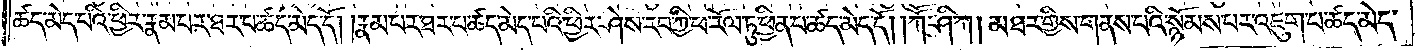ཚད་མེད་པའི་ཕྱིར་རྣམ་པར་ཐར་པ་ཚད་མེད་དོ། །རྣམ་པར་ཐར་པ་ཚད་མེད་པའི་ཕྱིར་ཤེས་རབ་ཀྱི་ཕ་རོལ་ཏུ་ཕྱིན་པ་ཚད་མེད་དོ། །ཀཽ་ཤི་ཀ། མཐར་གྱིས་གནས་པའི་སྙོམས་པར་འཇུག་པ་ཚད་མེད་
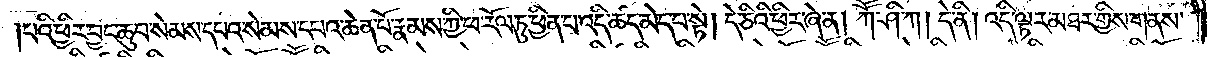པའི་ཕྱིར་བྱང་ཆུབ་སེམས་དཔའ་སེམས་དཔའ་ཆེན་པོ་རྣམས་ཀྱི་ཕ་རོལ་ཏུ་ཕྱིན་པ་འདི་ཚད་མེད་པ་སྟེ། དེ་ཅིའི་ཕྱིར་ཞེ་ན། ཀཽ་ཤི་ཀ། དེ་ནི། འདི་ལྟར་མཐར་གྱིས་གནས་
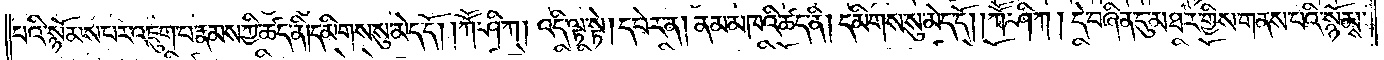པའི་སྙོམས་པར་འཇུག་པ་རྣམས་ཀྱི་ཚད་ནི། དམིགས་སུ་མེད་དོ། །ཀཽ་ཤི་ཀ། འདི་ལྟ་སྟེ། དཔེར་ན། ནམ་མཁའི་ཚད་ནི། དམིགས་སུ་མེད་དོ། །ཀཽ་ཤི་ཀ །དེ་བཞིན་དུ་མཐར་གྱིས་གནས་པའི་སྙོམས་
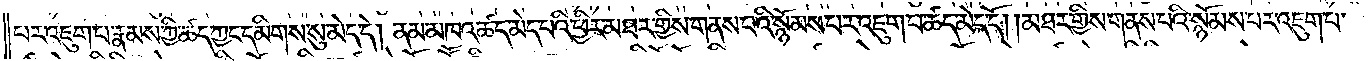པར་འཇུག་པ་རྣམས་ཀྱི་ཚད་ཀྱང་དམིགས་སུ་མེད་དེ། ནམ་མཁའ་ཚད་མེད་པའི་ཕྱིར་མཐར་གྱིས་གནས་པའི་སྙོམས་པར་འཇུག་པ་ཚད་མེད་དོ། །མཐར་གྱིས་གནས་པའི་སྙོམས་པར་འཇུག་པ་
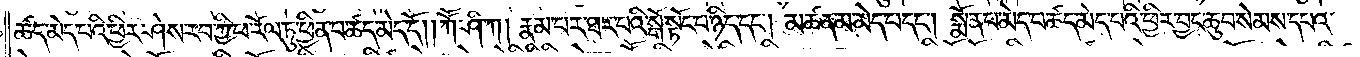ཚད་མེད་པའི་ཕྱིར་ཤེས་རབ་ཀྱི་ཕ་རོལ་ཏུ་ཕྱིན་པ་ཚད་མེད་དོ། །ཀཽ་ཤི་ཀ། རྣམ་པར་ཐར་པའི་སྒོ་སྟོང་པ་ཉིད་དང༌། མཚན་མ་མེད་པ་དང༌། སྨོན་པ་མེད་པའི་ཕྱིར་བྱང་ཆུབ་སེམས་དཔའ་
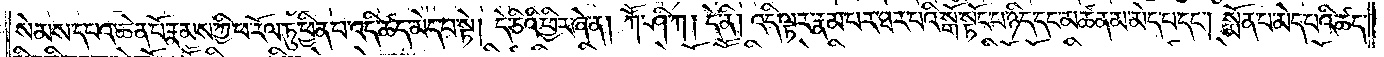སེམས་དཔའ་ཆེན་པོ་རྣམས་ཀྱི་ཕ་རོལ་ཏུ་ཕྱིན་པ་འདི་ཚད་མེད་པ་སྟེ། དེ་ཅིའི་ཕྱིར་ཞེ་ན། ཀཽ་ཤི་ཀ། དེ་ནི། འདི་ལྟར་རྣམ་པར་ཐར་པའི་སྒོ་སྟོང་པ་ཉིད་དང་མཚན་མ་མེད་པ་དང༌། སྨོན་པ་མེད་པའི་ཚད་
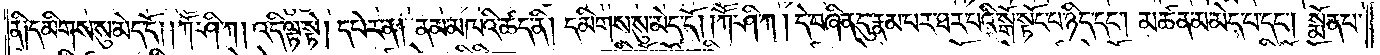ནི། དམིགས་སུ་མེད་དོ། །ཀཽ་ཤི་ཀ། འདི་ལྟ་སྟེ། དཔེར་ན། ནམ་མཁའི་ཚད་ནི། དམིགས་སུ་མེད་དོ། །ཀཽ་ཤི་ཀ། དེ་བཞིན་དུ་རྣམ་པར་ཐར་པའི་སྒོ་སྟོང་པ་ཉིད་དང༌། མཚན་མ་མེད་པ་དང༌། སྨོན་པ་
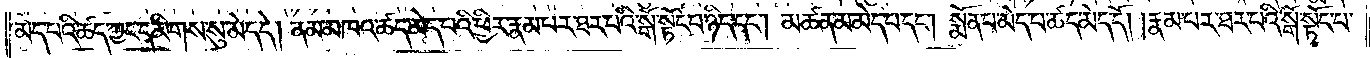མེད་པའི་ཚད་ཀྱང་དམིགས་སུ་མེད་དེ། ནམ་མཁའ་ཚད་མེད་པའི་ཕྱིར་རྣམ་པར་ཐར་པའི་སྒོ་སྟོང་པ་ཉིད་དང༌། མཚན་མ་མེད་པ་དང༌། སྨོན་པ་མེད་པ་ཚད་མེད་དོ། །རྣམ་པར་ཐར་པའི་སྒོ་སྟོང་པ་
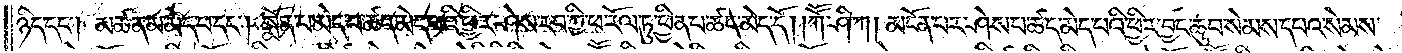ཉིད་དང༌། མཚན་མ་མེད་པ་དང༌། སྨོན་པ་མེད་པ་ཚད་མེད་པའི་ཕྱིར་ཤེས་རབ་ཀྱི་ཕ་རོལ་ཏུ་ཕྱིན་པ་ཚད་མེད་དོ། །ཀཽ་ཤི་ཀ། མངོན་པར་ཤེས་པ་ཚད་མེད་པའི་ཕྱིར་བྱང་ཆུབ་སེམས་དཔའ་སེམས་
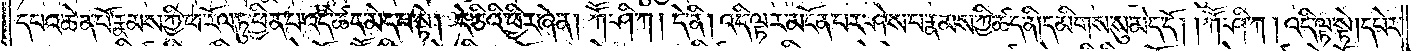དཔའ་ཆེན་པོ་རྣམས་ཀྱི་ཕ་རོལ་ཏུ་ཕྱིན་པ་འདི་ཚད་མེད་པ་སྟེ། དེ་ཅིའི་ཕྱིར་ཞེ་ན། ཀཽ་ཤི་ཀ། དེ་ནི། འདི་ལྟར་མངོན་པར་ཤེས་པ་རྣམས་ཀྱི་ཚད་ནི། དམིགས་སུ་མེད་དོ། །ཀཽ་ཤི་ཀ། འདི་ལྟ་སྟེ། དཔེར་
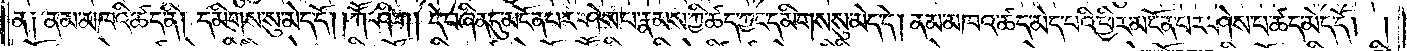ན། ནམ་མཁའ་ཚད་ནི། དམིགས་སུ་མེད་དོ། །ཀཽ་ཤི་ཀ། དེ་བཞིན་དུ་མངོན་པར་ཤེས་པ་རྣམས་ཀྱི་ཚད་ཀྱང་དམིགས་སུ་མེད་དེ། ནམ་མཁའ་ཚད་མེད་པའི་ཕྱིར་མངོན་པར་ཤེས་པ་ཚད་མེད་དོ། །
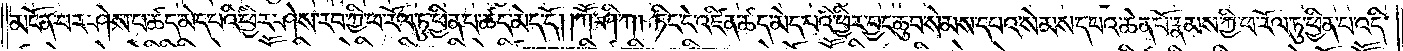མངོན་པར་ཤེས་པ་ཚད་མེད་པའི་ཕྱིར་ཤེས་རབ་ཀྱི་ཕ་རོལ་ཏུ་ཕྱིན་པ་ཚད་མེད་དོ། །ཀཽ་ཤི་ཀ། ཏིང་ངེ་འཛིན་ཚད་མེད་པའི་ཕྱིར་བྱང་ཆུབ་སེམས་དཔའ་སེམས་དཔའ་ཆེན་པོ་རྣམས་ཀྱི་ཕ་རོལ་ཏུ་ཕྱིན་པ་འདི་
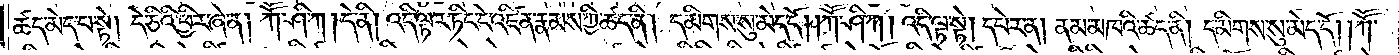ཚད་མེད་པ་སྟེ། དེ་ཅིའི་ཕྱིར་ཞེ་ན། ཀཽ་ཤི་ཀ། དེ་ནི། འདི་ལྟར་ཏིང་ངེ་འཛིན་རྣམས་ཀྱི་ཚད་ནི། དམིགས་སུ་མེད་དོ། །ཀཽ་ཤི་ཀ། འདི་ལྟ་སྟེ། དཔེར་ན། ནམ་མཁའི་ཚད་ནི། དམིགས་སུ་མེད་དོ། །ཀཽ་
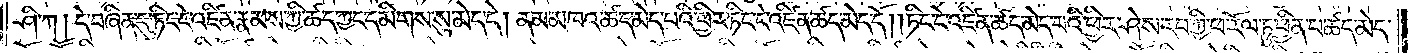ཤི་ཀ། དེ་བཞིན་དུ་ཏིང་ངེ་འཛིན་རྣམས་ཀྱི་ཚད་ཀྱང་དམིགས་སུ་མེད་དེ། ནམ་མཁའ་ཚད་མེད་པའི་ཕྱིར་ཏིང་ངེ་འཛིན་ཚད་མེད་དོ། །ཏིང་ངེ་འཛིན་ཚད་མེད་པའི་ཕྱིར་ཤེས་རབ་ཀྱི་ཕ་རོལ་ཏུ་ཕྱིན་པ་ཚད་མེད་
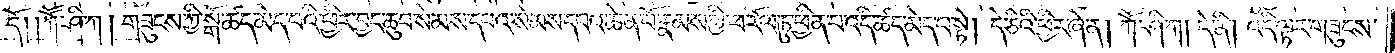དོ། །ཀཽ་ཤི་ཀ། གཟུངས་ཀྱི་སྒོ་ཚད་མེད་པའི་ཕྱིར་བྱང་ཆུབ་སེམས་དཔའ་སེམས་དཔའ་ཆེན་པོ་རྣམས་ཀྱི་ཕ་རོལ་ཏུ་ཕྱིན་པ་འདི་ཚད་མེད་པ་སྟེ། དེ་ཅིའི་ཕྱིར་ཞེ་ན། ཀཽ་ཤི་ཀ། དེ་ནི། འདི་ལྟར་གཟུངས་
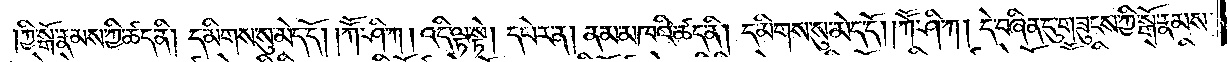ཀྱི་སྒོ་རྣམས་ཀྱི་ཚད་ནི། དམིགས་སུ་མེད་དོ། །ཀཽ་ཤི་ཀ། དཔེར་ན། ནམ་མཁའི་ཚད་ནི། དམིགས་སུ་མེད་དོ། །ཀཽ་ཤི་ཀ། དེ་བཞིན་དུ་གཟུངས་ཀྱི་སྒོ་རྣམས་
